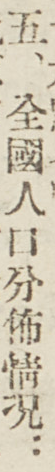五、全國人口分佈情況：
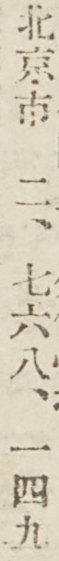北京市 二、七六八、一四九
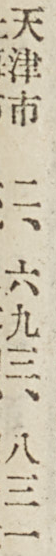天津市 二、六九三、八三一
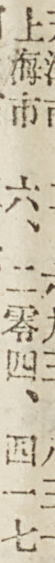上海市 六、二零四、四一七
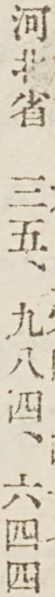河北省 三五、九八四、六四四
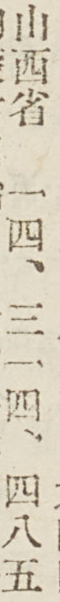山西省 一四、三一四、四八五
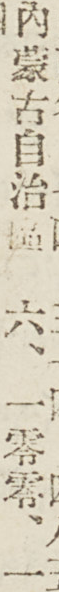內蒙古自治區 六、一零零、一
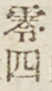零四
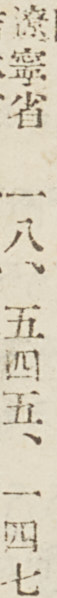遼寧省 一八、五四五、一四七
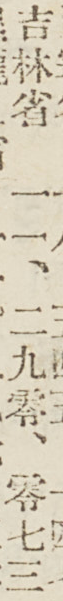吉林省 一一、二九零、零七三
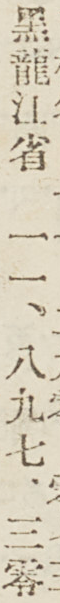黑龍江省 一一、八九七、三零
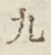九
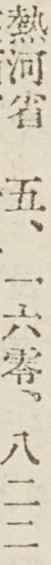熱河省 五、一六零、八二二
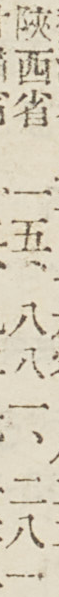陝西省 一五、八八一、二八一
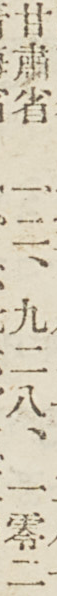甘肅省 一二、九二八、一零二
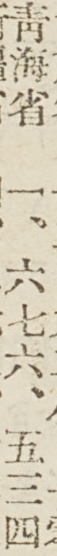靑海省 一、六七六、五三四
